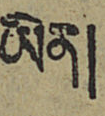ཡིན།
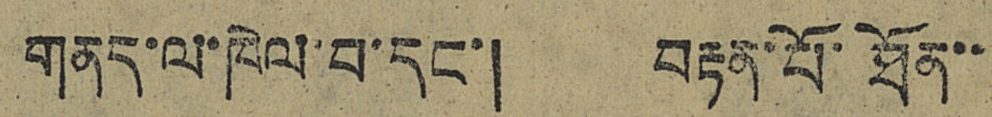གནད་ལ་ཁེལ་བ་དང་། བརྟན་པོ་ཐོན་་
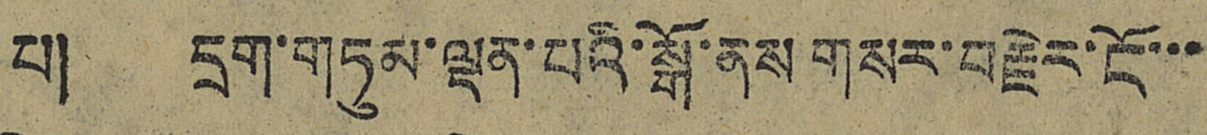པ། དྲག་གཏུམ་ལྡན་པའི་སྒོ་ནས་གསར་བརྗེར་ངོ་་་
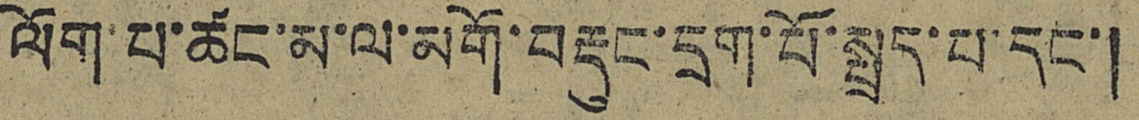ལོག་པ་ཚང་མ་ལ་མགོ་བརྡུང་དྲག་པོ་སྤྲད་པ་དང་།
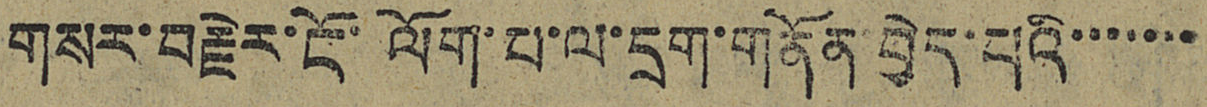གསར་བརྗེར་ངོ་ལོག་པ་ལ་དྲག་གནོན་བྱེད་པའི་་་་་་་
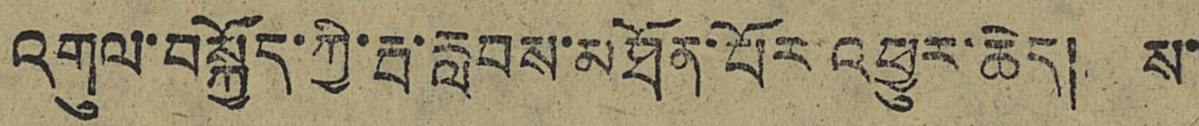འགུལ་བསྐྱོད་ཀྱི་རྦ་རླབས་མཐོན་པོར་འཕྱུར་ཆེད། ས་
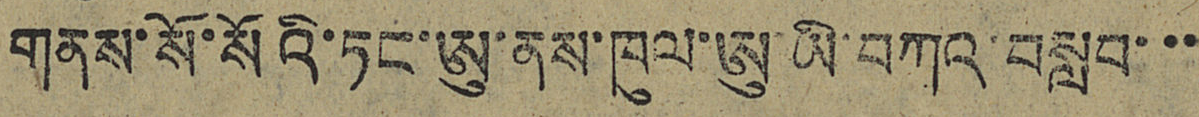གནས་སོ་སོའི་ཏང་ཨུ་ནས་ཁུལ་ཨུ་ཡི་བཀའ་བསླབ་་་
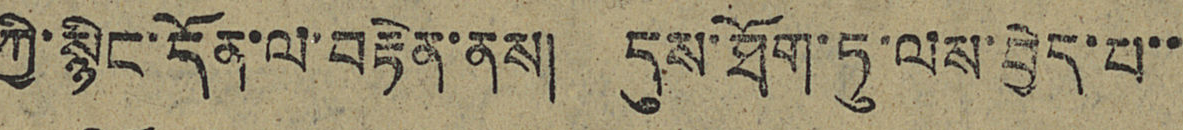ཀྱི་སྙིང་དོན་ལ་བརྟེན་ནས། དུས་ཐོག་ཏུ་ལས་བྱེད་པ་་
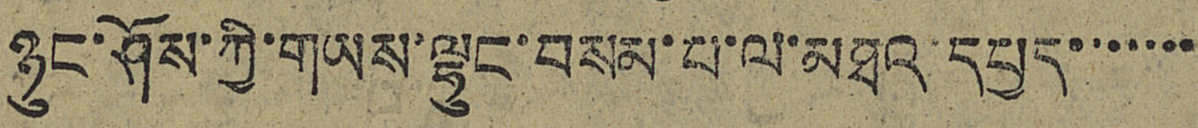ཉུང་ཤོས་ཀྱི་གཡས་ལྷུང་བསམ་པ་ལ་མཐའ་དཔྱད་་་་་་་
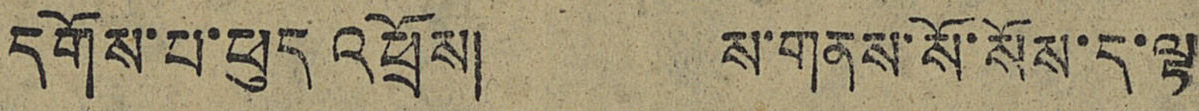དགོས་པ་ཕུད འཕྲོས། ས་གནས་སོ་སོས་ད་ལྟ
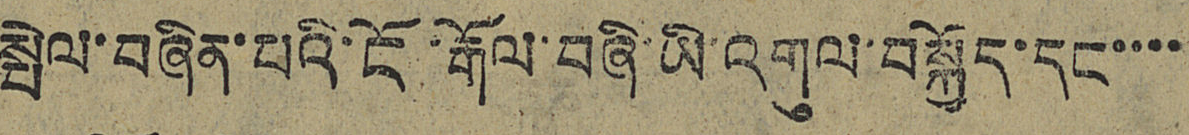སྤེལ་བཞིན་པའི་ངོ་རྒོལ་བཞི་ཡི་འགུལ་བསྐྱོད་དང་་་་
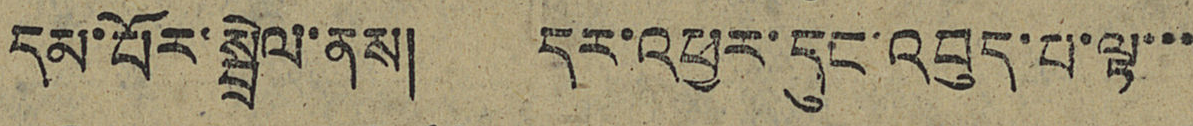དམ་པོར་སྦྲེལ་ནས། དར་འཕྱར་དུང་འབུད་པ་ལྟ་་་
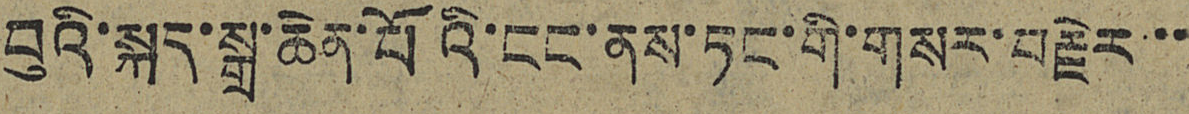བུའི་སྐད་སྒྲ་ཆེན་པོའི་ངང་ནས་ཏང་གི་གསར་བརྗེར་་
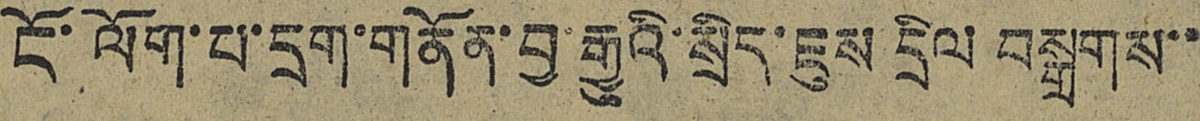ངོ་ལོག་པ་དྲག་གནོན་བྱ་རྒྱུའི་སྲིད་ཇུས་དྲིལ བསྒྲགས་་
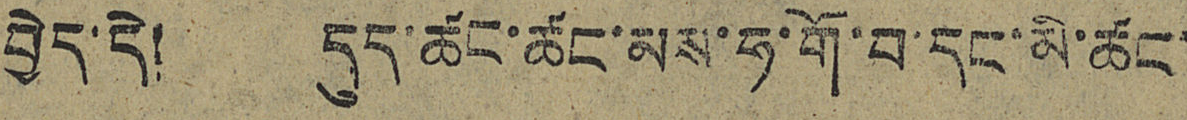བྱེད་དེ། དུད་ཚང་ཚང་མས་ཧ་གོ་བ་དནག་མི་ཚང་
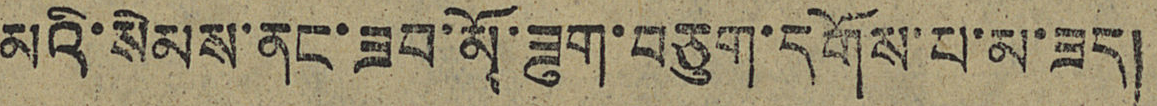མའི་སེམས་ནང་ཟབ་མོ་ཟུག་བཅུག་དོགས་པ་མ་ཟད།
